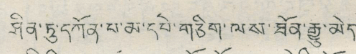ཤིན་ཏུ་དཀོན་པ་མ་དཔེ་གཅིག་ལས་ཐོན་རྒྱུ་མེད།
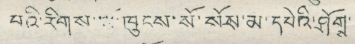བའི་རིགས་་་་་་ཁུངས་སོ་སོས་མ་དཔེའི་ཤོགྶ་
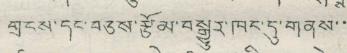གྲངས་དང་བཅས་རྩོམ་བསྒྱུར་ཁང་དུ་གནས་་
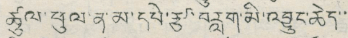ཚུལ་ཕུལ་ན་མ་དཔེ་རྩ་བརླག་མི་འབྱུང་ཆེད་་
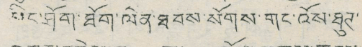པིང་ཤོག་ཐོག་ལེན་ཐབས་སོགས་གང་འོས་ཐུཊ་
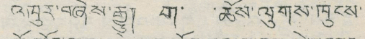འཁུར་བཞེས་རྒྱུ། ག་ ཆོས་ལུགས་ཁུངས་
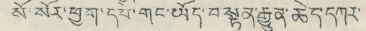སོ་སོར་ཕྱག་དཔེ་གང་ཡོད་བསྟན་རྒྱུན་ཆེད་དཀར་
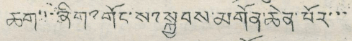ཆག་་་ཞིག་༸གོང་ས་༸སྐྱབས་མགོན་ཆེན་པོར་་་
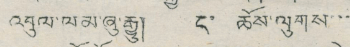འབུལ་ལམ་ཞུ་རྒྱུ། ང་ ཆོས་ལུགས་་་
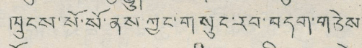ཁུངས་སོ་སོ་ནས་ཀྱང་གསུང་རབ་བདག་གཅེས་
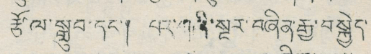རྩོལ་སྒྲུབ་དང་། པར་གཞི་སྔར་བཞིན་རྒྱ་བསྐྱེད་
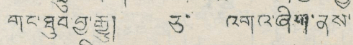གང་ཐུབ་བྱ་རྒྱུ། ཅ་ འགའ་ཞིག་ནས་
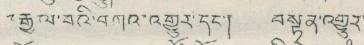༸རྒྱལ་བའི་བཀའ་འགྱུར་དང་། བསྟན་འགྱུར་
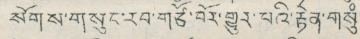སོགས་གསུང་རབ་གཙོ་བོར་གྱུར་པའི་རྟེན་གསུཾ་
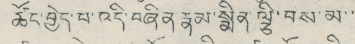ཚོང་བྱེད་པ་འདི་བཞིན་རྣམ་སྨིན་ལྕི་བས་མ་་
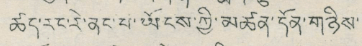ཚད་རང་རེ་ནང་པ་ཡོངས་ཀྱི་མཚན་དོན་གཉིས་
